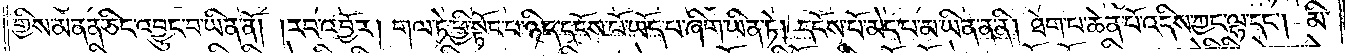གྱིས་མནན་ཅིང་འབྱུང་བ་ཡིན་ནོ། །རབ་འབྱོར། གལ་ཏེ་ཕྱི་སྟོང་པ་ཉིད་དངོས་པོ་ཡོད་པ་ཞིག་ཡིན་ཏེ། དངོས་པོ་མེད་པ་མ་ཡིན་ན་ནི། ཐེག་པ་ཆེན་པོ་འདིས་ཀྱང་ལྷ་དང༌། མི་
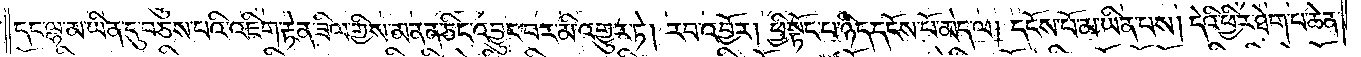དང་ལྷ་མ་ཡིན་དུ་བཅས་པའི་འཇིག་རྟེན་ཟིལ་གྱིས་མནན་ཅིང་འབྱུང་བར་མི་འགྱུར་ཏེ། རབ་འབྱོར། ཕྱི་སྟོང་པ་ཉིད་དངོས་པོ་མེད་ལ། དངོས་པོ་མ་ཡིན་པས། དེའི་ཕྱིར་ཐེག་པ་ཆེན་
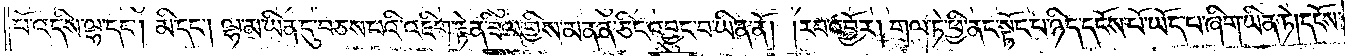པོ་འདིས་ལྷ་དང༌། མི་དང༌། ལྷ་མ་ཡིན་དུ་བཅས་པའི་འཇིག་རྟེན་ཟིལ་གྱིས་མནན་ཅིང་འབྱུང་བ་ཡིན་ནོ། །རབ་འབྱོར། གལ་ཏེ་ཕྱི་ནང་སྟོང་པ་ཉིད་དངོས་པོ་ཡོད་པ་ཞིག་ཡིན་ཏེ། དངོས་
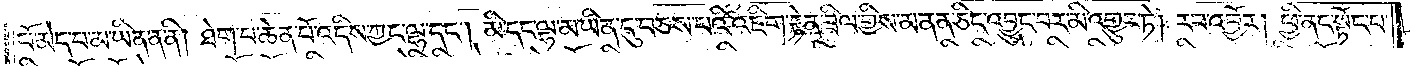པོ་མེད་པ་མ་ཡིན་ན་ནི། ཐེག་པ་ཆེན་པོ་འདིས་ཀྱང་ལྷ་དང༌། མི་དང་ལྷ་མ་ཡིན་དུ་བཅས་པའི་འཇིག་རྟེན་ཟིལ་གྱིས་མནན་ཅིང་འབྱུང་བར་མི་འགྱུར་ཏེ། རབ་འབྱོར། ཕྱི་ནང་སྟོང་པ་
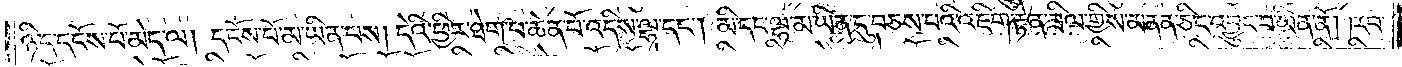ཉིད་དངོས་པོ་མེད་ལ། དངོས་པོ་མ་ཡིན་པས། དེའི་ཕྱིར་ཐེག་པ་ཆེན་པོ་འདིས་ལྷ་དང༌། མི་དང་ལྷ་མ་ཡིན་དུ་བཅས་པའི་འཇིག་རྟེན་ཟིལ་གྱིས་མནན་ཅིང་འབྱུང་བ་ཡིན་ནོ། །རབ་
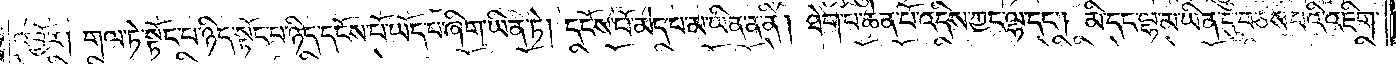འབྱོར། གལ་ཏེ་སྟོང་པ་ཉིད་སྟོང་པ་ཉིད་དངོས་པོ་ཡོད་པ་ཞིག་ཡིན་ཏེ། དངོས་པོ་མེད་པ་མ་ཡིན་ན་ནི། ཐེག་པ་ཆེན་པོ་འདིས་ཀྱང་ལྷ་དང༌། མི་དང་ལྷ་མ་ཡིན་དུ་བཅས་པའི་འཇིག་
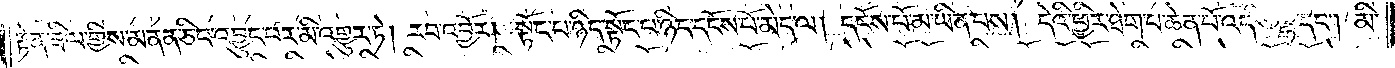རྟེན་ཟིལ་གྱིས་མནན་ཅིང་འབྱུང་བར་མི་འགྱུར་ཏེ། རབ་འབྱོར། སྟོང་པ་ཉིད་སྟོང་པ་ཉིད་དངོས་པོ་མེད་ལ། དངོས་པོ་མ་ཡིན་པས། དེའི་ཕྱིར་ཐེག་པ་ཆེན་པོ་འདིས་ལྷ་དང༌། མི་
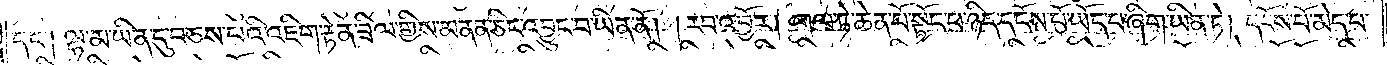དང༌། ལྷ་མ་ཡིན་དུ་བཅས་པའི་འཇིག་རྟེན་ཟིལ་གྱིས་མནན་ཅིང་འབྱུང་བ་ཡིན་ནོ། །རབ་འབྱོར། གལ་ཏེ་ཆེན་པོ་སྟོང་པ་ཉིད་དངོས་པོ་ཡོད་པ་ཞིག་ཡིན་ཏེ། དངོས་པོ་མེད་པ་
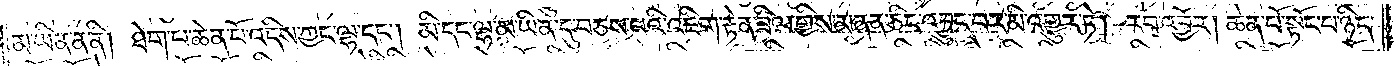མ་ཡིན་ན་ནི་ཐེག་པ་ཆེན་པོ་འདིས་ཀྱང་ལྷ་དང༌། མི་དང་ལྷ་མ་ཡིན་དུ་བཅས་པའི་འཇིག་རྟེན་ཟིལ་གྱིས་མནན་ཅིང་འབྱུང་བར་མི་འགྱུར་ཏེ། རབ་འབྱོར། ཆེན་པོ་སྟོང་པ་ཉིད་
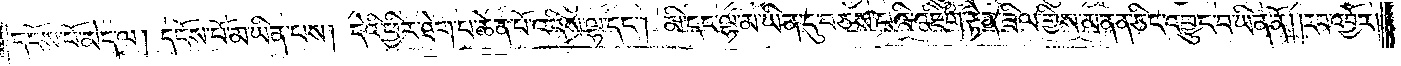དངོས་པོ་མེད་ལ། དངོས་པོ་མ་ཡིན་པས། དེའི་ཕྱིར་ཐེག་པ་ཆེན་པོ་འདིས་ལྷ་དང༌། མི་དང་ལྷ་མ་ཡིན་དུ་བཅས་པའི་འཇིག་རྟེན་ཟིལ་གྱིས་མནན་ཅིང་འབྱུང་བ་ཡིན་ནོ། །རབ་འབྱོར།
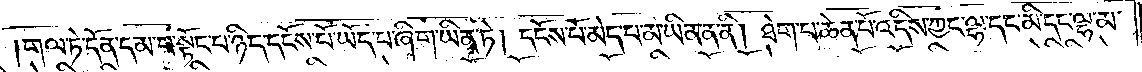གལ་ཏེ་དོན་དམ་པ་སྟོང་པ་ཉིད་དངོས་པོ་ཡོད་པ་ཞིག་ཡིན་ཏེ། དངོས་པོ་མེད་པ་མ་ཡིན་ན་ནི། ཐེག་པ་ཆེན་པོ་འདིས་ཀྱང་ལྷ་དང་མི་དང་ལྷ་མ་
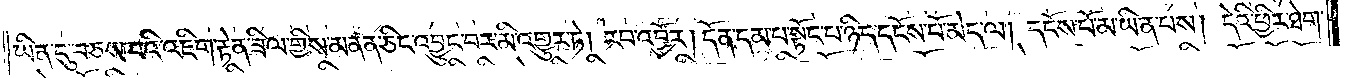ཡིན་དུ་བཅས་པའི་འཇིག་རྟེན་ཟིལ་གྱིས་མནན་ཅིང་འབྱུང་བར་མི་འགྱུར་ཏེ། རབ་འབྱོར། དོན་དམ་པ་སྟོང་པ་ཉིད་དངོས་པོ་མེད་ལ། དངོས་པོ་མ་ཡིད་པས། དེའི་ཕྱིར་ཐེག་
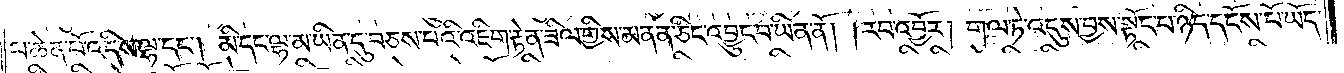པ་ཆེན་པོ་འདིས་ལྷ་དང༌། མི་དང་ལྷ་མ་ཡིན་དུ་བཅས་པའི་འཇིག་རྟེན་ཟིལ་གྱིས་མནན་ཅིང་འབྱུང་བ་ཡིན་ནོ། །རབ་འབྱོར། གལ་ཏེ་འདུས་བྱས་སྟོང་པ་ཉིད་དངོས་པོ་ཡོད་
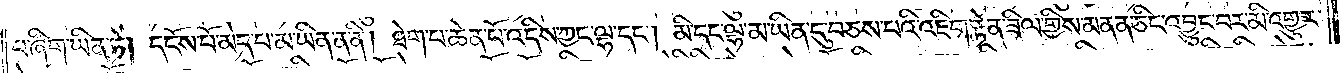པ་ཞིག་ཡིན་ཏེ། དངོས་པོ་མེད་པ་མ་ཡིན་ན་ནི། ཐེག་པ་ཆེན་པོ་འདིས་ཀྱང་ལྷ་དང༌། མི་དང་ལྷ་མ་ཡིན་དུ་བཅས་པའི་འཇིག་རྟེན་ཟིལ་གྱིས་མནན་ཅིང་འབྱུང་བར་མི་འགྱུར་
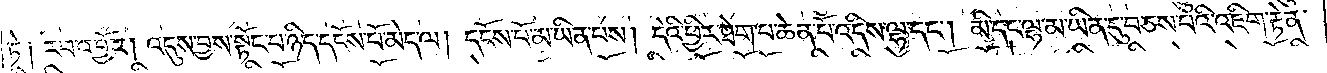ཏེ། རབ་འབྱོར། འདུས་བྱས་སྟོང་པ་ཉིད་དངོས་པོ་མེད་ལ། དངོས་པོ་མ་ཡིན་པས། དེའི་ཕྱིར་ཐེག་པ་ཆེན་པོ་འདིས་ལྷ་དང༌། མི་དང་ལྷ་མ་ཡིན་དུ་བཅས་པའི་འཇིག་རྟེན་
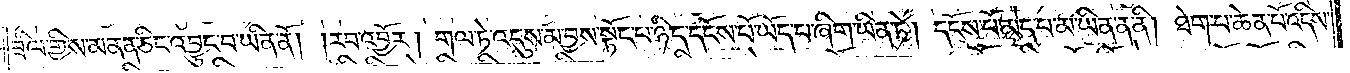ཟིལ་གྱིས་མནན་ཅིང་འབྱུང་བ་ཡིན་ནོ། །རང་འབྱོར། གལ་ཏེ་འདུས་མ་བྱས་སྟོང་པ་ཉིད་དངོས་པོ་ཡོད་པ་ཞིག་ཡིན་ཏེ། དངོས་པོ་མེད་པ་མ་ཡིན་ན་ནི། ཐེག་པ་ཆེན་པོ་འདིས་
